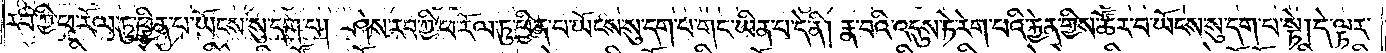རབ་ཀྱི་ཕ་རོལ་ཏུ་ཕྱིན་པ་ཡོངས་སུ་དག་པ། ཤེས་རབ་ཀྱི་ཕ་རོལ་ཏུ་ཕྱིན་པ་ཡོངས་སུ་དག་པ་གང་ཡིན་པ་དེ་ནི། རྣ་བའི་འདུས་ཏེ་རེག་པའི་རྐྱེན་གྱིས་ཚོར་བ་ཡོངས་སུ་དག་པ་སྟེ། དེ་ལྟར་
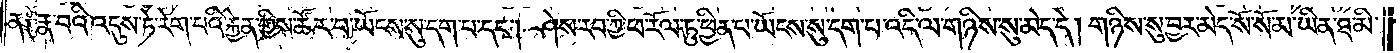ན༑ རྣ་བའི་འདུས་ཏེ་རེག་པའི་རྐྱེན་གྱིས་ཚོར་བ་ཡོངས་སུ་དག་པ་དང༌། ཤེས་རབ་ཀྱི་ཕ་རོལ་ཏུ་ཕྱིན་པ་ཡོངས་སུ་དག་པ་འདི་ལ་གཉིས་སུ་མེད་དེ། གཉིས་སུ་བྱར་མེད་སོ་སོ་མ་ཡིན་ཐ་མི་
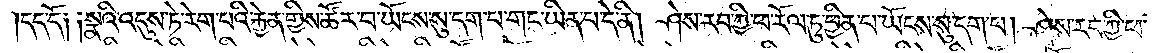དད་དོ༑ ༑སྣའི་འདུས་ཏེ་རེག་པའི་རྐྱེན་གྱིས་ཚོར་བ་ཡོངས་སུ་དག་པ་གང་ཡིན་པ་དེ་ནི། ཤེས་རབ་ཀྱི་ཕ་རོལ་ཏུ་ཕྱིན་པ་ཡོངས་སུ་དག་པ། ཤེས་རབ་ཀྱི་ཕ་
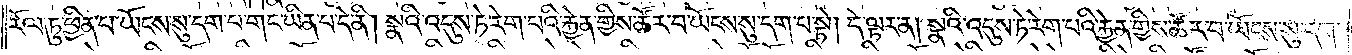རོལ་ཏུ་ཕྱིན་པ་ཡོངས་སུ་དག་པ་གང་ཡིན་པ་དེ་ནི། སྣའི་འདུས་ཏེ་རེག་པའི་རྐྱེན་གྱིས་ཚོར་བ་ཡོངས་སུ་དག་པ་སྟེ། དེ་ལྟར་ན། སྣའི་འདུས་ཏེ་རེག་པའི་རྐྱེན་གྱིས་ཚོར་བ་ཡོངས་སུ་དག་
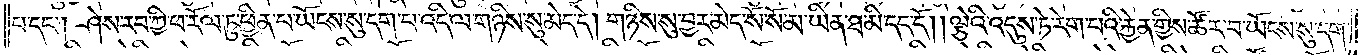པ་དང༌། ཤེས་རབ་ཀྱི་ཕ་རོལ་ཏུ་ཕྱིན་པ་ཡོངས་སུ་དག་པ་འདི་ལ་གཉིས་སུ་མེད་དེ། གཉིས་སུ་བྱར་མེད་སོ་སོ་མ་ཡིན་ཐ་མི་དད་དོ། །ལྕེའི་འདུས་ཏེ་རེག་པའི་རྐྱེན་གྱིས་ཚོར་བ་ཡོངས་སུ་དག་
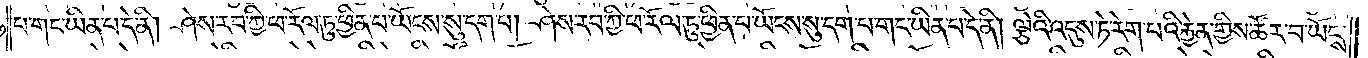པ་གང་ཡིན་པ་དེ་ནི། ཤེས་རབ་ཀྱི་ཕ་རོལ་ཏུ་ཕྱིན་པ་ཡོངས་སུ་དག་པ། ཤེས་རབ་ཀྱི་ཕ་རོལ་ཏུ་ཕྱིན་པ་ཡོངས་སུ་དག་པ་གང་ཡིན་པ་དེ་ནི། ལྕེའི་འདུས་ཏེ་རེག་པའི་རྐྱེན་གྱིས་ཚོར་བ་ཡོངས་
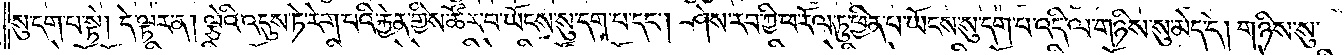སུ་དག་པ་སྟེ། དེ་ལྟར་ན། ལྕེའི་འདུས་ཏེ་རེག་པའི་རྐྱེན་གྱིས་ཚོར་བ་ཡོངས་སུ་དག་པ་དང༌། ཤེས་རབ་ཀྱི་ཕ་རོལ་ཏུ་ཕྱིན་པ་ཡོངས་སུ་དག་པ་འདི་ལ་གཉིས་སུ་མེད་དེ། གཉིས་སུ་
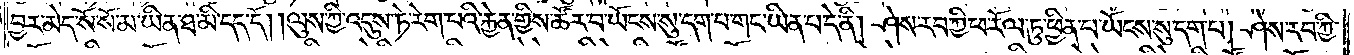བྱར་མེད་སོ་སོ་མ་ཡིན་ཐ་མི་དད་དོ། །ལུས་ཀྱི་འདུས་ཏེ་རེག་པའི་རྐྱེན་གྱིས་ཚོར་བ་ཡོངས་སུ་དག་པ་གང་ཡིན་པ་དེ་ནི། ཤེས་རབ་ཀྱི་ཕ་རོལ་ཏུ་ཕྱིན་པ་ཡོངས་སུ་དག་པ། ཤེས་རབ་ཀྱི་
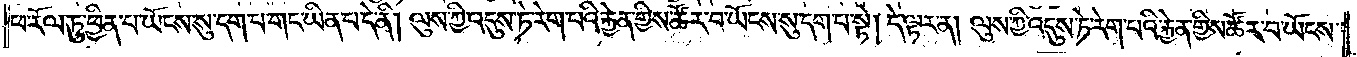ཕ་རོལ་ཏུ་ཕྱིན་པ་ཡོངས་སུ་དག་པ་གང་ཡིན་པ་དེ་ནི། ལུས་ཀྱི་འདུས་ཏེ་རེག་པའི་རྐྱེན་གྱིས་ཚོར་བ་ཡོངས་སུ་དག་པ་སྟེ། དེ་ལྟར་ན། ལུས་ཀྱི་འདུས་ཏེ་རེག་པའི་རྐྱེན་གྱིས་ཚོར་བ་ཡོངས་
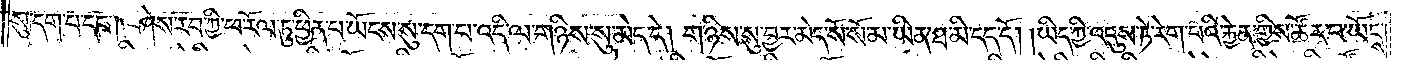སུ་དག་པ་དང༌། ཤེས་རབ་ཀྱི་ཕ་རོལ་ཏུ་ཕྱིན་པ་ཡོངས་སུ་དག་པ་འདི་ལ་གཉིས་སུ་མེད་དེ། གཉིས་སུ་བྱར་མེད་སོ་སོ་མ་ཡིན་ཐ་མི་དད་དོ། །ཡིད་ཀྱི་འདུས་ཏེ་རེག་པའི་རྐྱེན་གྱིས་ཚོར་བ་ཡོངས་
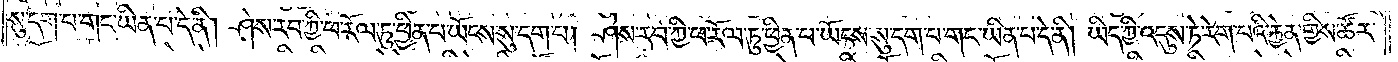སུ་དག་པ་གང་ཡིན་པ་དེ་ནི། ཤེས་རབ་ཀྱི་ཕ་རོལ་ཏུ་ཕྱིན་པ་ཡོངས་སུ་དག་པ། ཤེས་རབ་ཀྱི་ཕ་རོལ་ཏུ་ཕྱིན་པ་ཡོངས་སུ་དག་པ་གང་ཡིན་པ་དེ་ནི། ཡིད་ཀྱི་འདུས་ཏེ་རེག་པའི་རྐྱེན་གྱིས་ཚོར་
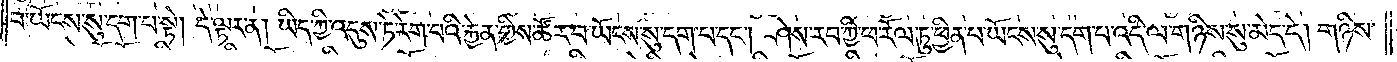བ་ཡོངས་སུ་དག་པ་སྟེ། དེ་ལྟར་ན། ཡིད་ཀྱི་འདུས་ཏེ་རེག་པའི་རྐྱེན་གྱིས་ཚོར་བ་ཡོངས་སུ་དག་པ་དང༌། ཤེས་རབ་ཀྱི་ཕ་རོལ་ཏུ་ཕྱིན་པ་ཡོངས་སུ་དག་པ་འདི་ལ་གཉིས་སུ་མེད་དེ། གཉིས་
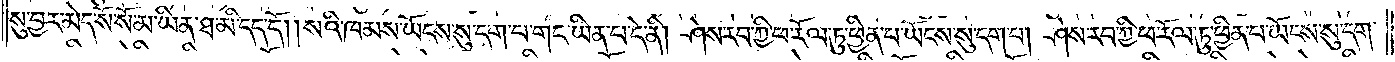སུ་བྱར་མེད་སོ་སོ་མ་ཡིན་ཐ་མི་དད་དོ། །སའི་ཁམས་ཡོངས་སུ་དག་པ་གང་ཡིན་པ་དེ་ནི། ཤེས་རབ་ཀྱི་ཕ་རོལ་ཏུ་ཕྱིན་པ་ཡོངས་སུ་དག་པ། ཤེས་རབ་ཀྱི་ཕ་རོལ་ཏུ་ཕྱིན་པ་ཡོངས་སུ་དག་
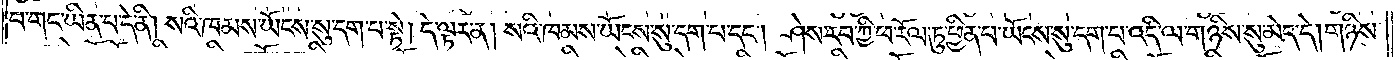པ་གང་ཡིན་པ་དེ་ནི། སའི་ཁམས་ཡོངས་སུ་དག་པ་སྟེ། དེ་ལྟར་ན། སའི་ཁམས་ཡོངས་སུ་དག་པ་དང༌། ཤེས་རབ་ཀྱི་ཕ་རོལ་ཏུ་ཕྱིན་པ་ཡོངས་སུ་དག་པ་འདི་ལ་གཉིས་སུ་མེད་དེ། གཉིས་
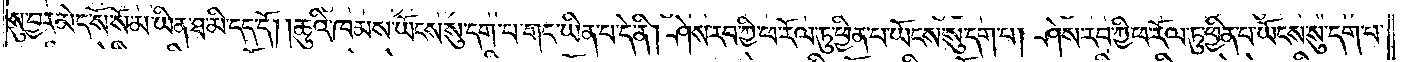སུ་བྱར་མེད་སོ་སོ་མ་ཡིན་ཐ་མི་དད་དོ། །ཆུའི་ཁམས་ཡོངས་སུ་དག་པ་གང་ཡིན་པ་དེ་ནི། ཤེས་རབ་ཀྱི་ཕ་རོལ་ཏུ་ཕྱིན་པ་ཡོངས་སུ་དག་པ། ཤེས་རབ་ཀྱི་ཕ་རོལ་ཏུ་ཕྱིན་པ་ཡོངས་སུ་དག་པ་
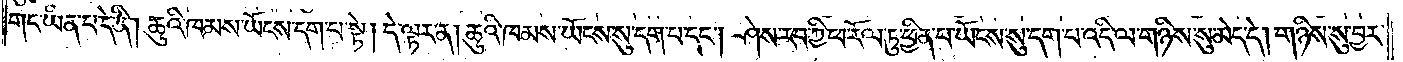གང་ཡིན་པ་དེ་ནི། ཆུའི་ཁམས་ཡོངས་སུ་དག་པ་སྟེ། དེ་ལྟར་ན། ཆུའི་ཁམས་ཡོངས་སུ་དག་པ་དང༌། ཤེས་རབ་ཀྱི་ཕ་རོལ་ཏུ་ཕྱིན་པ་ཡོངས་སུ་དག་པ་འདི་ལ་གཉིས་སུ་མེད་དེ། གཉིས་སུ་བྱར་
